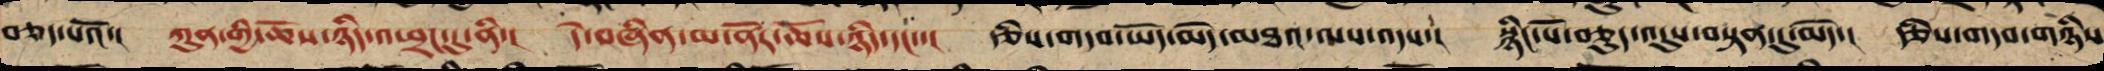བཅད་པའོ་། ཀུན་གྱི་ཆོས་ཉིད་འཕྲང་དུ་ནི་། དེ་བཞིན་མ་ནོར་ཆོས་ཉིད་དང་་། རྩིས་གདབ་ཡོད་མེད་མཐའ་ལས་འདས་། སྙིང་པོ་བཅུད་འདུས་བསྟན་དུ་མེད་། རྩིས་གདབ་གཉིས
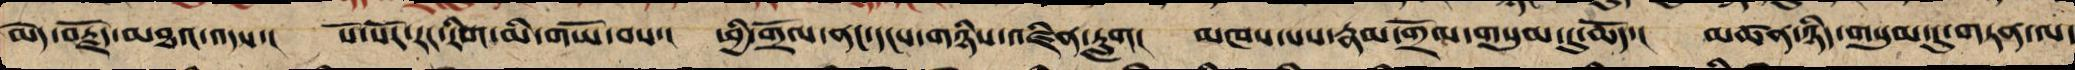མེད་བརྗོད་མཐའ་འདས་། སོ་སོ་རང་རིག་མི་གཡོ་བས་། ཕྱི་གྲོལ་ནང་དངས་གཉིས་འཛིན་རླག། མཁས་པས་རྣམ་གྲོལ་གསུམ་དུ་ཆོད་། མཚན་ཉིད་གསུམ་དུ་གཏན་ལ་
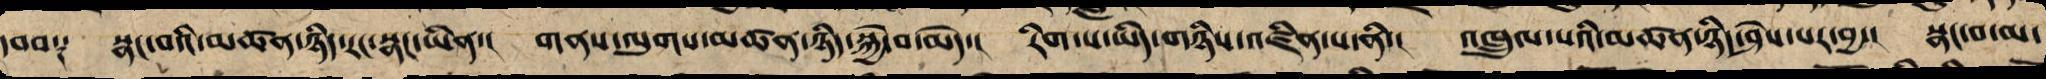དབབ༑ སྣང་བའི་མཚན་ཉིད་རང་སྣང་ཡིན་། གནས་ལུགས་མཚན་ཉིད་སྐྱེ་བ་མེད་། རིག་པ་ཡིད་གཉིས་འཛིན་པ་ནི་། འཁྲུལ་པའི་མཚན་ཉིད་ཤེས་པར་བྱ་། སྣང་བ་མ་
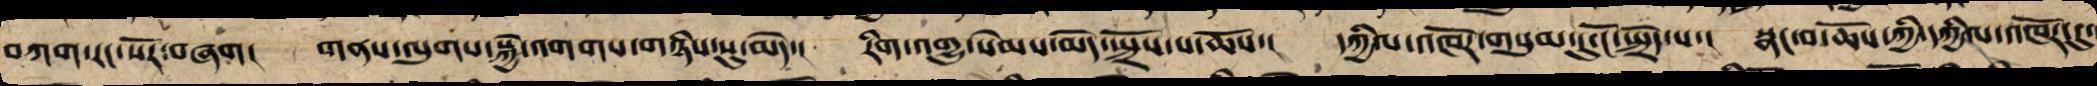བཀག་རང་སོར་བཞག། གནས་ལུགས་སྐྱེ་འགག་གཉིས་སུ་མེད་། རིག་འགྱུ་སེམས་མེད་སྤྲོས་པ་ཆོས་། དཀྱིལ་འཁོར་གསུམ་དུ་ངོ་སྤྲོད་པ་། སྣང་བ་ཆོས་ཀྱི་དཀྱིལ་འཁོར་དུ་
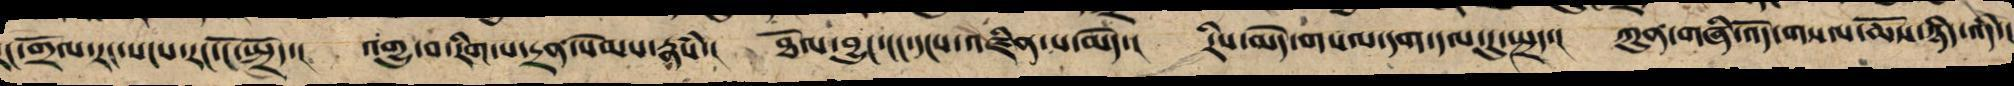ང་གྲོལ་རང་སངས་རང་ངོ་སྤྲོད་། འགྱུ་བ་རིག་པ་དྲན་སེམས་རྣཾས་། ཐོལ་བྱུང་ངང་དངས་འཛིན་པ་མེད་། རིས་མེད་གསལ་དག་དལ་དུ་སྤྲད་། ཀུན་གཞི་འོད་གསལ་ཆོས་ཉིད་འདི་།
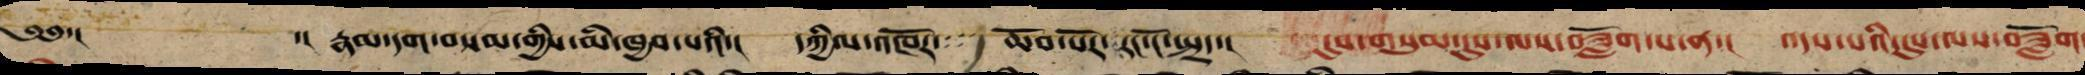༄༅་། ་། རྣམ་དག་བསམ་གྱིས་མི་ཁྱབ་པའི་། དཀྱིལ་འཁོར་ ཆེན་པོར་རང་ངོ་སྤྲད་། དུས་གསུམ་དུས་ལས་བཟློག་པ་ནི་། འདས་པའི་དུས་ལས་བཟློག
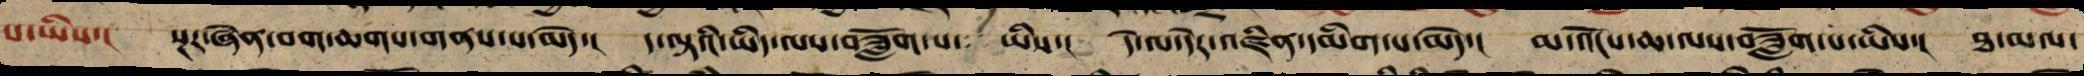པ་ཡིས་། སྔར་ཞེན་བག་ཆགས་གནས་པ་མེད་། ད་ལྟའི་ཡིད་ལས་བཟློག་པ་ ཡིས་། དེ་ལ་དེར་འཛིན་དམིགས་པ་མེད་། མ་འོངས་ཆ་ལས་བཟློག་པ་ཡིས་། ཐ་མལ་
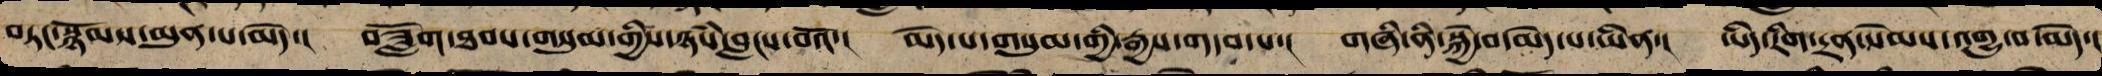བཏང་སྙོམས་མུན་པ་མེད་། བཟློག་ཐབས་གསུམ་གྱིས་ཉཾས་བླངས་བའོ་། མེད་པ་གསུམ་གྱིས་རྒྱས་གདབ་པ་། གཞི་ནི་སྐྱེ་བ་མེད་པ་ཡིན་། ཡིད་རིག་དྲན་སེམས་འགྱུ་བ་མེད་། །
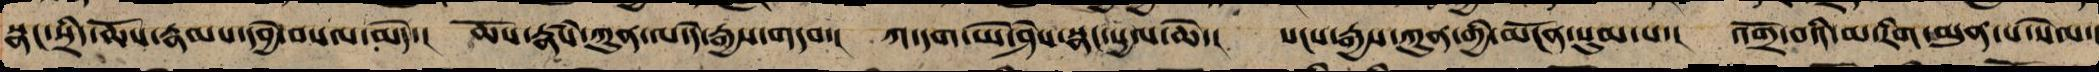སྣང་སྲིད་ཆོས་རྣམས་དབྱེ་བསལ་མེད་། ཆོས་རྣཾས་ཀུན་ལ་དེ་རྒྱས་གདབ་། ཀ་དག་ཡེ་ཤེས་སྣང་སྱལ་ཆེ་། སངས་རྒྱས་ཀུན་གྱི་མངོན་སུམ་པ་། འགྲོ་བའི་མ་རིག་མུན་པ་སེལ་
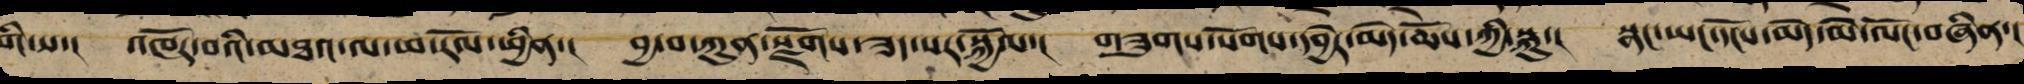གི་ས་། འཁོར་བའི་མཐའ་ལས་ཕ་རོལ་ཕྱིན་། བྱ་བ་ཀུན་སྫོགས་ཟད་སར་སྐྱོལ་། གཟུགས་སོགས་དབྱེར་མེད་ཆོས་ཀྱི་སྐུ་། སྣང་ཡང་དངོས་མེད་མེ་ལོང་བཞིན་།
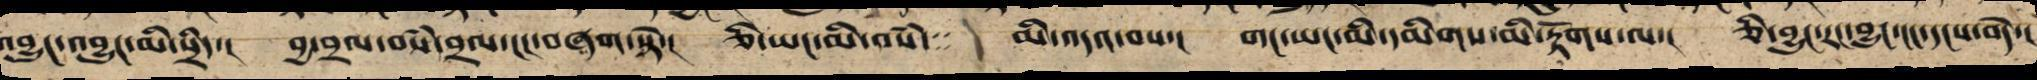འབྱུང་འབྱུང་མི་སྲིད་། བྱ་བྲལ་བསམ་བྲལ་ངང་བཞག་སྟེ་། ཅི་ཡང་མི་བསཾ་མི་འདའ་བས་། གང་ཡང་མི་དམིགས་མི་རྟོག་ལ་། ཅི་བྱུང་རང་བྱུང་ངང་དངས་བདེ་།
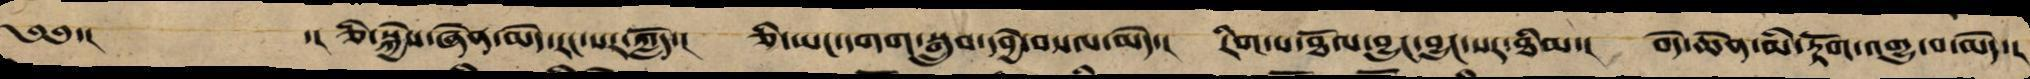༄༅་། ་། ཅི་སྐྱེས་ཞེན་མེད་རང་སར་ཀློད་། ཅི་ཡང་དགག་སྒྲུབ་དབྱེ་བསལ་མེད་། རིག་པ་ཐོལ་བྱུང་བྱུང་སར་ཐིམ་། བདེ་ཆེན་མི་རྟོག་འགྱུ་བ་མེད་།
